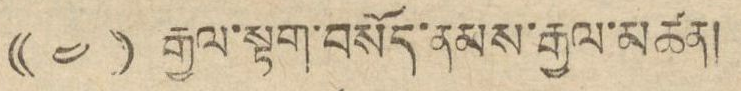(( ༤ )) རྒྱལ་སྟག་བསོད་ནམས་རྒྱལ་མཚན།།
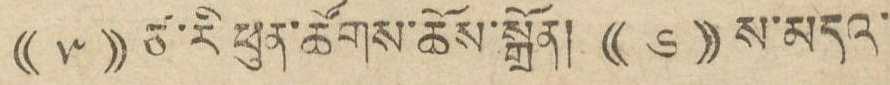(( ༥ )) ཙ་རི ཕུན་ཚོགས་ཆོས་སྒྲོན། (( ༦ )) ས་མདའ་
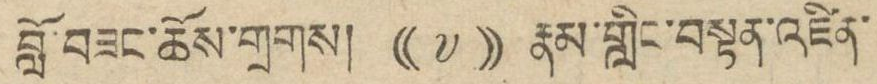བློ་བཟང་ཆོས་གྲགས། (( ༧ )) རྣམ་གླིང་བསྟན་འཛིན་
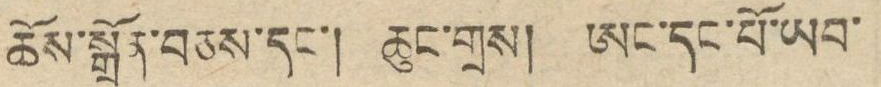ཆོས་སྒྲོན་བཅས་དང་། ཆུང་གྲས། ཨང་དང་པོ་ཡབ་
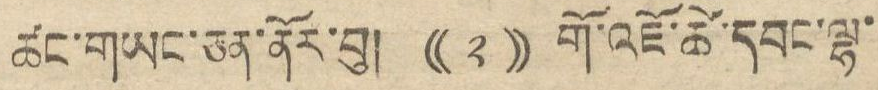ཚང་གཡང་ཅན་ནོར་བུ། (( ༢ )) གོ་འཛོ་ཚེ་དབང་ལྷ་
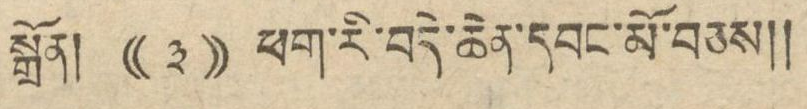སྒྲོན། (( ༣ )) ཕག་རི་བདེ་ཆེན་དབང་མོ་བཅས།།
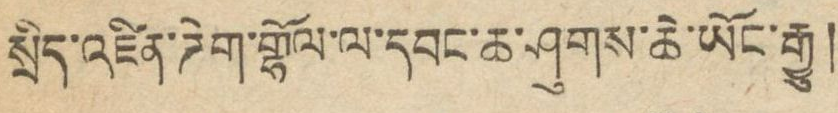སྲིད་འཛིན་ཌེག་གྷོལ་ལ་དབང་ཆ་ཤུགས་ཆེ་ཡོང་རྒྱུ།
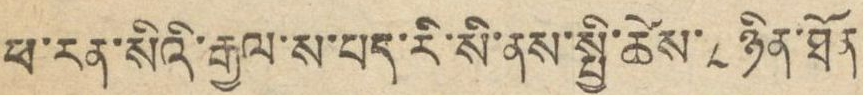ཕ་རན་སིའི་རྒྱལ་ས་པད་རི་སི་ནས་སྤྱི་ཚེས་ ༨ ཉིན་ཐོན་
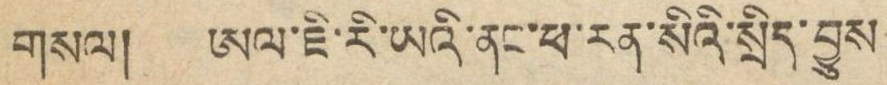གསལ། ཨལ་ཇི་རི་ཡའི་ནང་ཕ་རན་སིའི་སྲིད་བྱུས
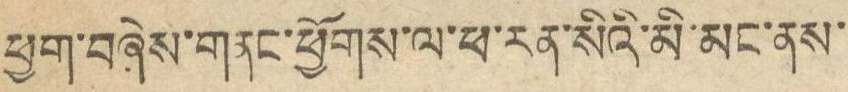ཕྱག་བཞེས་གནང་ཕྱོགས་ལ་ཕ་རན་སིའི་མི་མང་ནས་
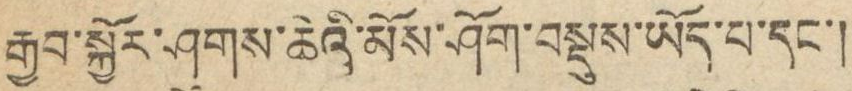རྒྱབ་སྐྱོར་ཤུགས་ཆེའི་མོས་ཤོག་བསྡུས་ཡོད་པ་དང་།
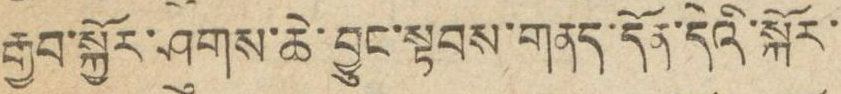རྒྱབ་སྐྱོར་ཤུགས་ཆེ་བྱུང་སྟབས་གནད་དོན་དེའི་སྐོར་
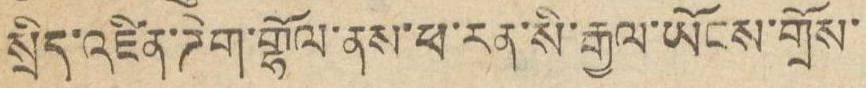སྲིད་འཛིན་ཌེག་གྷོལ་ནས་ཕ་རན་སི་རྒྱལ་ཡོངས་གྲོས་
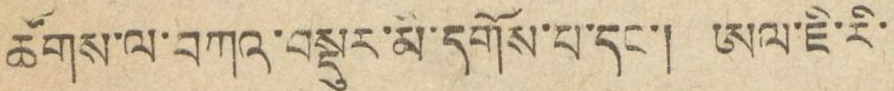ཚོགས་ལ་བཀའ་བསྡུར་མི་དགོས་པ་དང་། ཨལ་ཇི་རི་
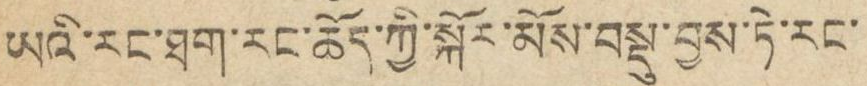ཡའི་རང་ཐག་རང་ཆོད་ཀྱི་སྐོར་མོས་བསྡུ་བྱས་ཏེ་རང་
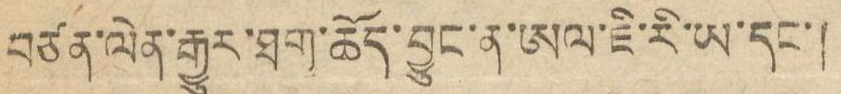བཙན་ལེན་རྒྱུར་ཐག་ཆོད་བྱུང་ན་ཨལ་ཇི་རི་ཡ་དང་།
